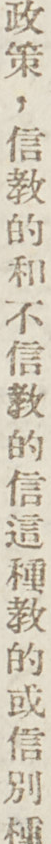政策，信教的和不信教的信這種教的或信別種
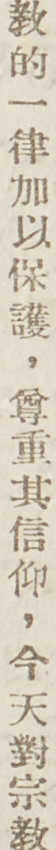教的一律加以保護，尊重其信仰，今天對宗教
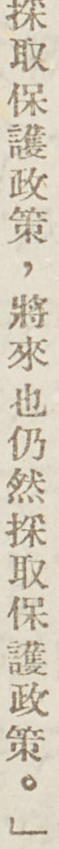採取保護政策，將來也仍然採取保護政策。」
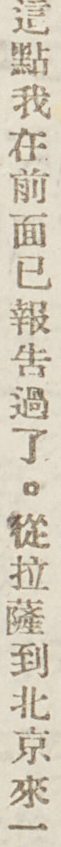這點我在前面已報告過了。從拉薩到北京來一
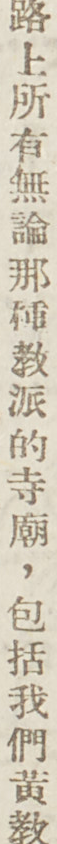路上所有無論那種教派的寺廟，包括我們黃教
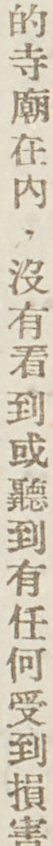的寺廟在內，沒有看到或通道有任何受到損害
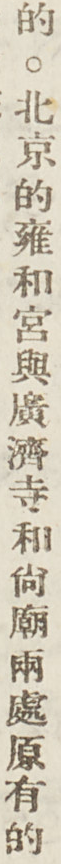的。北京的雍和宮與廣濟寺和尚廟兩處原有的
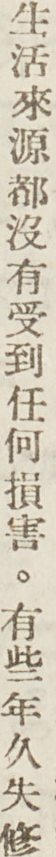生活來源都沒有收到任何損害。有些年久失修
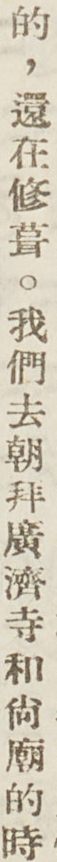的，還在修葺。我們去朝拜廣濟寺和尚廟的時
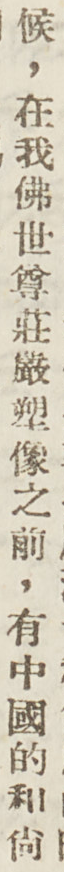候，在我佛世尊莊嚴塑像之前，有中國的和尚
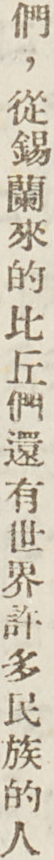們，從錫蘭來的比丘們還有世界許多民族的人
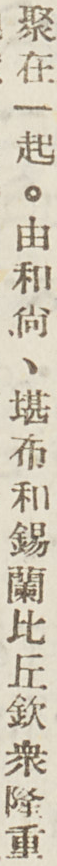聚在一起。由和尚、堪布和錫蘭比丘欽衆隆重
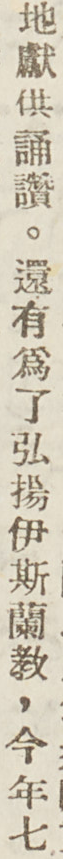地獻供誦讚。還有爲了弘揚伊斯蘭教，今年七
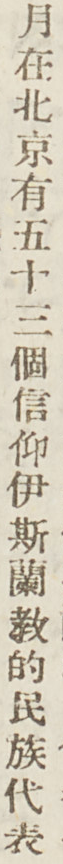月在北京有五十三個信仰伊斯蘭教的民族代表
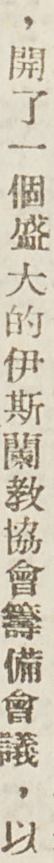，開了一個盛大的伊斯蘭教協會籌備會議，以
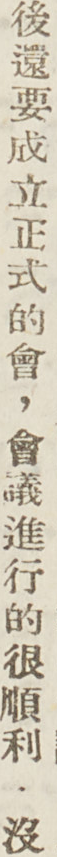後還要成立正式的會，會議進行的很順利，沒
